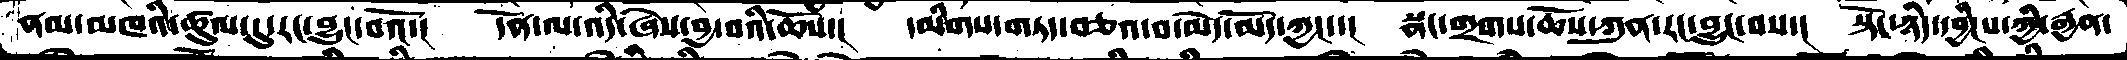ནམ་མཁའི་ཚུལ་དུ་རང་བྱུང་བའོ་།   དོན་ལ་འདི་ཞེས་བྱ་བའི་ཆོས་།   དམིགས་གཏད་བཅའ་བ་མེད་མོད་ཀྱང་་།   སྣང་གྲགས་ཆོས་ཀུན་རང་བྱུང་བས་།   སྟོང་ཉིད་དབྱིངས་ཀྱི་རྒྱན་
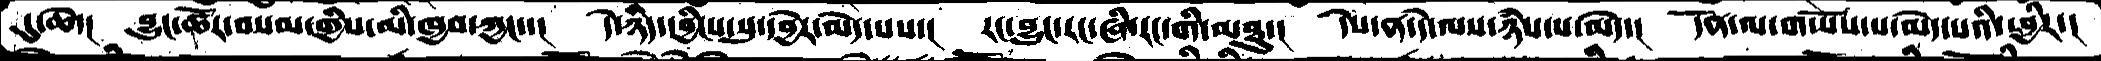དུ་ཆེ་།  བྱུང་ཚོར་བསམ་གྱིས་མི་ཁྱབ་ཀྱང་་།   དེ་ཉིད་དབྱིངས་སུ་དབྱེར་མེད་པས་།   རང་བྱུང་རང་ཞི་རང་གི་མཐུ་།   དེས་ན་དེ་ལས་ཉཾས་པ་མེད་།   དོན་ལ་གཡོས་པ་མེད་པའི་ཕྱིར་།
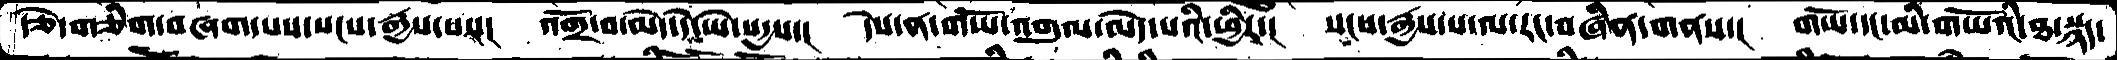རྩེ་གཅིག་བཞག་པས་སངས་རྒྱས་པས།   འགྲོ་བ་མེད་ད་ེཡེ་སདྱས་།   དེས་ན་གཡོ་འགུལ་མེད་པའི་ཕྱིར་།   སངས་རྒྱས་པ་ལ་རང་བཞིན་གནས་།   གཡོ་དང་མི་གཡོའི་ཐ་སྙད་
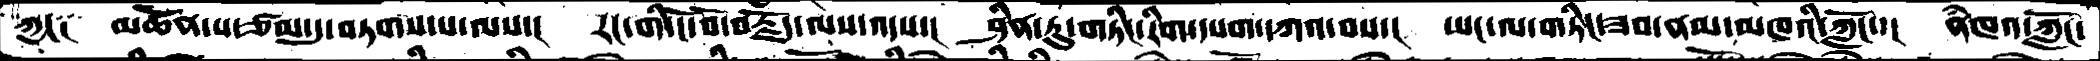ཀྱང༑  མཚོན་པ་ཙམ་དུ་བཏགས་པ་ལས་།   རང་གི་ངོ་བོ་བརྗོད་ལས་འདས་།   ཤིན་ཏུ་གཏིང་རིག་དཔག་དཀའ་བས་།  ཡང་ལ་གཏིང་ཟབ་ནམ་མཁའི་ཀློང་་།    ནཾཁའ་ཀློང་
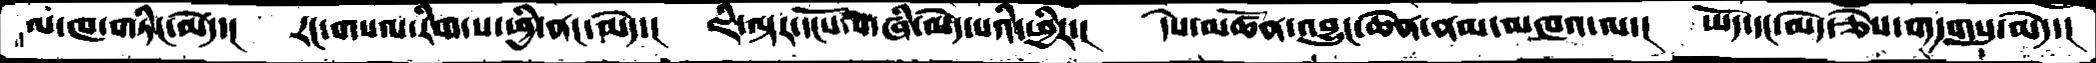ལ་ཁ་གཏིང་མེད་།  རང་གསལ་རིག་པ་ཕྱི་ནང་མེད་།  ཇི་ལྟར་དངོས་གཞི་མེད་པའི་ཕྱིར་།  དཔེ་མཚོན་འབྱུང་ཆེན་ནམ་མཁའ་ལ་།  ཡོད་དང་མེད་ཅེས་གདགསུ་མེད་།
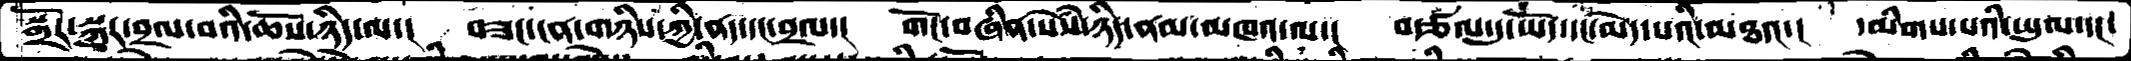སྒྲོར་སྐུར་བྲལ་བའི་ཆོས་ཉིད་ལ་།  བཟང་ངན་གཉིས་ཀྱི་ནད་དང་བྲལ་།  གོང་བཞིན་སེཾས་ཉིད་ནམ་མཁའ་ལ་།  བརྩལ་དུ་ཡོད་དང་མེད་པའི་མཐའ་།  དམིགས་པའི་་ཡུལ་དང་
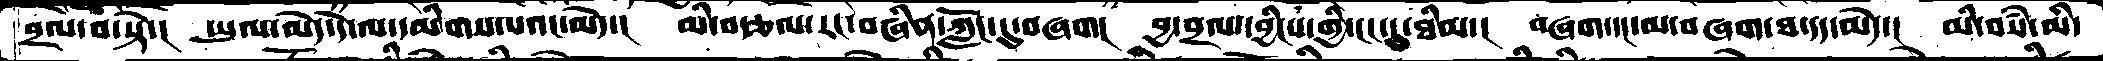བྲལ་བ་སྟེ་།  ཡུལ་མེད་དེ་ལ་དམིགས་པའང་མེད་།  མི་བརྩལ་་རང་བཞིན་ཀློང་དུ་བཞག།  བྱ་བྲལ་དབྱིངས་གྱི་ངང་དུ་ཐིམ་།  བཞག་དང་མ་བཞག་ཐ་དད་མེད་།  མི་བསཾ་མི་
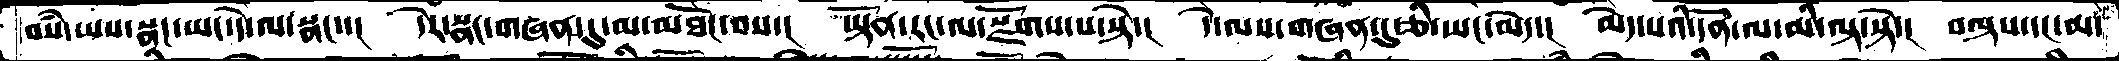བསཾ་ཡས་སྣང་ཡང་དེ་ལ་སྣང་་།  དེར་སྣང་གཞན་དུ་མ་མཐོང་བས་།  ཡྟོན་རང་ལ་སྫོགས་པ་སྟེ་།  དེ་ལས་གཞན་དུ་ཅི་ཡང་མེད་།  མེད་པའི་དོན་ལ་མི་ལྟ་སྟེ་།  བལྟས་དང་མ་
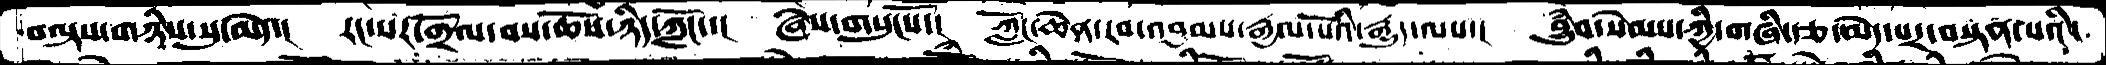བལྟས་གཉིས་སུ་མེད་།  རང་སར་གྲོལ་བས་ཆོས་ཉིད་ཀློང་་།  ཞེས་གསུངསོ་།  ཀློང་ཆེན་རབ་འབྱམས་རྒྱལ་པོའི་རྒྱུད་ལས་།  བྱུཾབ་སེམས་ཀྱི་གཞི་རྩ་མེད་པར་བསྟན་པའི་
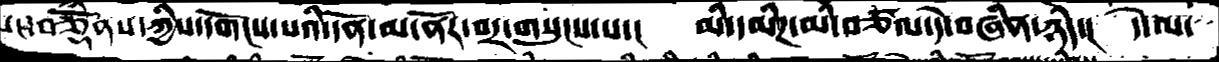དང་བཅྡོཾནས་ཀྱིས་དགོངས་པའི་དོན་མ་ནོར་བར་གསུངས་པ་།  མི་དམིཌ་མི་བཙལ་དེ་བཞིན་ཉིད་།  དེ་ལ་
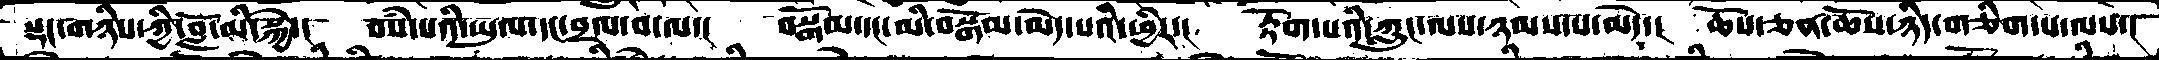སྡང་གཉིས་ཀྱི་བློ་མི་སྐྱེ་།  བསཾ་པའི་ཡུལ་དང་བྲལ་བ་ལ་།   བསྒོམ་དང་མི་བསྒོམ་མེད་པའི་ཕྱིར་།  རྟོག་པའི་ཀླུང་ལས་ཉམས་པ་མེད་།  ཆོས་ཅན་ཆོས་ཉིད་གཅིག་པ་ལས་།
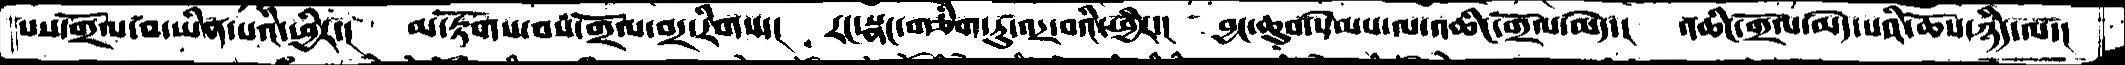པས་གྲོལ་བ་ཡིན་པའི་ཕྱིར་།  མ་རྟོགས་བས་གྲོལ་བར་རིགས་།  རང་སྣང་གཅིག་ཏུ་འདྲ་བའི་ཕྱིར་།  བྱང་ཆུབ་སེམས་ལ་འཆིང་གྲོལ་མེད་།  འཆིང་གྲོལ་མེད་པའི་ཆོས་ཉིད་ལ་།
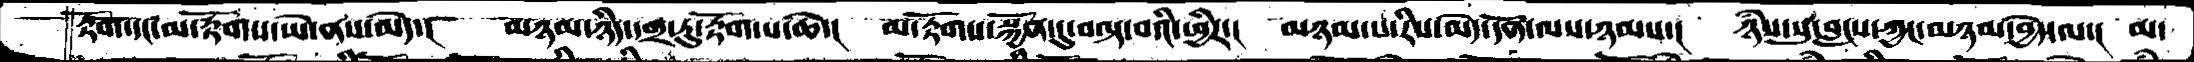རྟོག་དང་མ་རྟོགས་ཡེ་ནས་མེད་།  མཉམ་ཉིད་དགྲ་རུ་རྟོག་པ་ཆེ་།  མ་རྟོགས་སྐྱོན་དུ་བལྟ་བའི་ཕྱིར་།  མཉམ་པ་རིས་མེད་དོན་ལས་ཉམས་།  ཉཾས་སུ་བླངས་ཀྱང་མཉམ་བྱེད་ལ་།  མ་
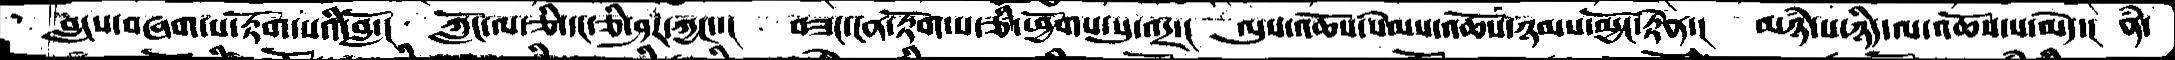བླངས་བཞག་པ་རྟོག་པའི་བློ་།  ཀློང་ལ་ཅི་དང་ཅི་ཤར་ཀྱང་་།  བཟང་ངན་རྟོག་པ་ཅི་ཕྱོགས་སུ་འདྲ་།  ལུས་འཆོས་སེསམ་འཆོས་ཉམས་མྱོང་རྟེན་།  མཉཾ་པ་ཉིད་ལ་འཆོས་པ་མེད་།  ནཾ་
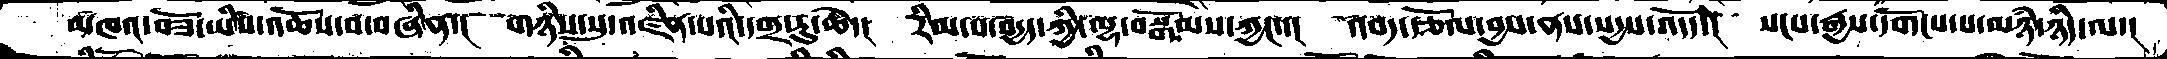མཁའ་བཟོ་ཡིས་འཆོས་བ་བཞིན་།   གཉིས་སུ་འཛིན་སའི་དགྲ་རུ་ཆེ་།   རིམ་པ་བདྱད་ཀྱི་ལྷ་བསྒོམས་ཀྱང་་།   འབད་རྩོལ་བྱས་ནས་སདྱས་འདོད་།   སངས་རྒྱས་དགོངས་པ་མཉཾ་ཉིད་ལ་།
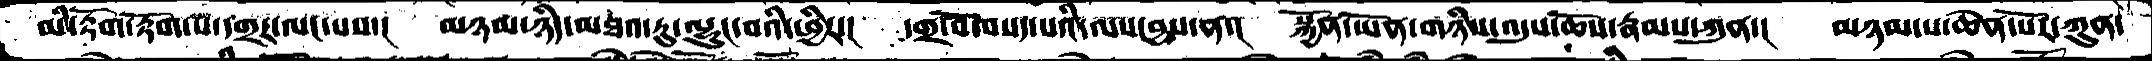མི་རྟོག་རྟོག་པ་དགྲར་ལང་པས་།   མཉམ་ཉིད་མཐའ་རུ་ལྷུང་བའི་ཕྱིར་།   དགྲ་བོ་བསད་པའི་ལས་བྱས་ན་།   སྐྱོན་ཡོན་གཉིས་འདུས་ཆོས་རྣམས་ཀུན་།   མཉམ་པ་ཆེན་པོར་ཀུན་
